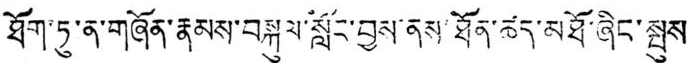ཐོག་ཏུ་ན་གཞོན་རྣམས་བསྐུལ་སློང་བྱས་ནས་ཐོན་ཚད་མཐོ་ཞིང་སྤུས
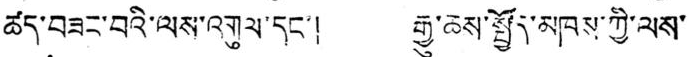ཚད་བཟང་བའི་ལས་འགུལ་དང་། རྒྱུ་ཆས་སྤྱོད་མཁས་ཀྱི་ལས་
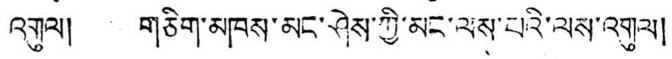འགུལ། གཅིག་མཁས་མང་ཤེས་ཀྱི་མང་ལས་པའི་ལས་འགུལ།
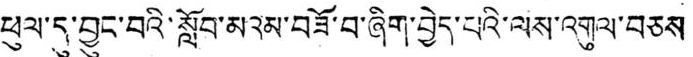ཕུལ་དུ་བྱུང་བའི་སློབ་མའམ་བཟོ་བ་ཞིག་བྱེད་པའི་ལས་འགུལ་བཅས
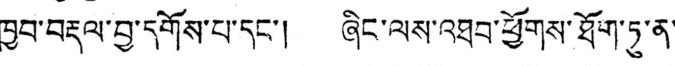ཁྱབ་བརྡལ་བྱ་དགོས་པ་དང་། ཞིང་ལས་འཐབ་ཕྱོགས་ཐོག་ཏུ་ན་
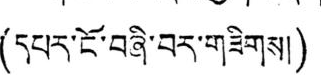(དཔར་ངོ་བཞི་བར་གཟིགས།)
